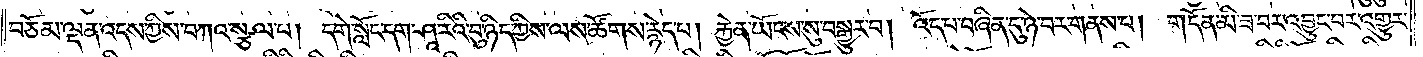བཅོམ་ལྡན་འདས་ཀྱིས་བཀའ་སྩལ་པ། དགེ་སློང་དག་ཤཱ་རིའི་བུ་ཉིད་ཀྱིས་ལས་ཚོགས་རྙེད་པ། རྐྱེན་ཡོངས་སུ་བསྒྱུར་བ། འོད་པ་བཞིན་དུ་ཉེ་བར་གནས་པ། གདོན་མི་ཟ་བར་འབྱུང་བར་འགྱུར་
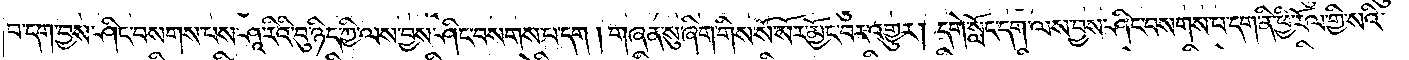བ་དག་བྱས་ཤིང་བསགས་པས་ཤཱ་རིའི་བུ་ཉིད་ཀྱི་ལས་བྱས་ཤིང་བསགས་པ་དག །གཞན་སུ་ཞིག་གིས་སོ་སོར་མྱོང་བར་འགྱུར། དགེ་སློང་དག་ལས་བྱས་ཤིང་བསགས་པ་དག་ནི་ཕྱི་རོལ་གྱི་སའི་
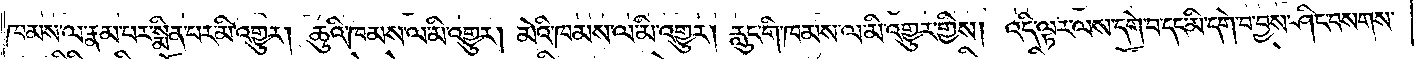ཁམས་ལ་རྣམ་པར་སྨིན་པར་མི་འགྱུར། ཆུའི་ཁམས་ལ་མི་འགྱུར། མེའི་ཁམས་ལ་མི་འགྱུར། རླུང་གི་ཁམས་ལ་མི་འགྱུར་གྱིས། འདི་ལྟར་ལས་དགེ་བ་དང་མི་དགེ་བ་བྱས་ཤིང་བསགས་
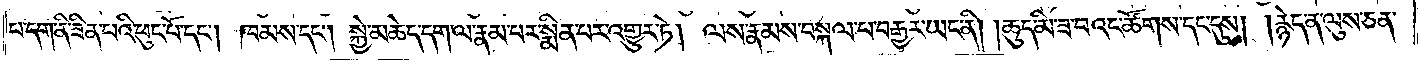པ་དག་ནི་ཟིན་པའི་ཕུང་པོ་དང༌། ཁམས་དང༌། སྐྱེ་མཆེད་དག་ལ་རྣམ་པར་སྨིན་པར་འགྱུར་ཏེ། ལས་རྣམས་བསྐལ་པ་བརྒྱར་ཡང་ནི། །ཆུད་མི་ཟ་བའང་ཚོགས་དང་དུས། །རྙེད་ན་ལུས་ཅན་
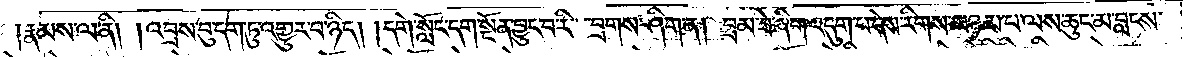རྣམས་ལ་ནི། །འབྲས་བུ་དག་ཏུ་འགྱུར་བ་ཉིད། །དགེ་སློང་དག་སྔོན་བྱུང་བ་རི་བྲགས་ཤིག་ན། བྲམ་ཟེ་ཞིག་འདུག་པ་དེས་རིགས་ཉམ་པ་ལས་ཆུང་མ་བླངས་
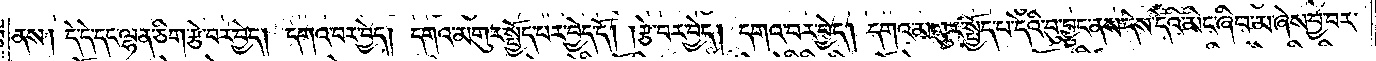ནས། དེ་དེ་དང་ལྷན་ཅིག་རྩེ་བར་བྱེད། དགའ་བར་བྱེད། དགའ་མགུར་སྤྱོད་པར་བྱེད་དོ། །རྩེ་བར་བྱེད། དགའ་བར་བྱེད། དགའ་མགུར་སྤྱོད་པ་དེའི་བུ་བྱུང་ནས་དེས་དེའི་མིང་ཞིབ་མ་ཞེས་བྱ་བར་
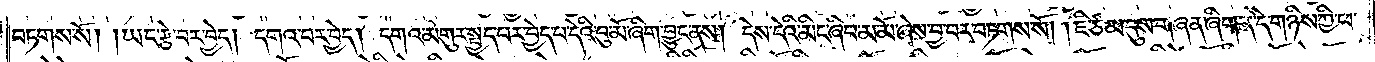བཏགས་སོ། །ཡང་རྩེ་བར་བྱེད། དགའ་བར་བྱེད། དགའ་མགུར་སྤྱད་པར་བྱེད་པ་དེའི་བུ་མོ་ཞིག་བྱུང་ནས། དེས་དེའི་མིང་ཞིབ་མ་མོ་ཞེས་བྱ་བར་བཏགས་སོ། །ཇི་ཙམ་དུས་གཞན་ཞིག་ན་དེ་གཉིས་ཀྱི་ཕ་
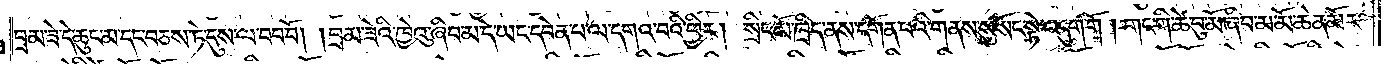བྲམ་ཟེ་དེ་ཆུང་མ་དང་བཅས་ཏེ་དུས་ལ་བབ་བོ། །བྲམ་ཟེའི་ཁྱེའུ་ཞིབ་མ་དེ་ཡང་དབེན་པ་ལ་དགའ་བའི་ཕྱིར། སྲིང་མོ་ཁྲིད་ནས་དགོན་པའི་གནས་སུ་སོང་སྟེ་འདུག་གོ། །གང་གི་ཚེ་བུ་མོ་ཞིབ་མ་མོ་ཆེན་མོར་
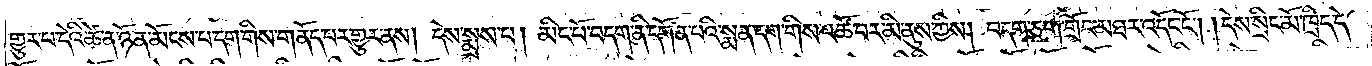གྱུར་པ་དེའི་ཚེ་ན་ཉོན་མོངས་པ་དག་གིས་གནོད་པར་གྱུར་ནས། དེས་སྨྲས་པ། མིང་པོ་བདག་ནི་དགོན་པའི་སྨན་དག་གིས་འཚོ་བར་མི་ནུས་ཀྱིས། བདག་ཅག་གྲོང་མཐར་འདོང་ངོ༌། །དེས་སྲིང་མོ་ཁྲིད་དེ་
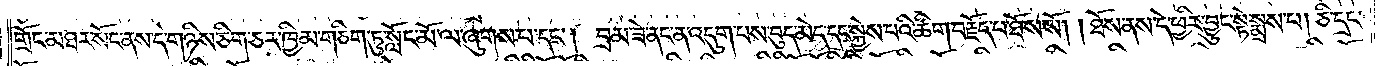གྲོང་མཐར་སོང་ནས་དེ་གཉིས་ཅིག་ཅར་ཁྱིམ་གཅིག་ཏུ་སློང་མོ་ལ་ཞུགས་པ་དང༌། བྲམ་ཟེ་ནང་ན་འདུག་པས་བུད་མེད་དང་སྐྱེས་པའི་ཚིག་བརྗོད་པ་ཐོས་སོ། །ཐོས་ནས་དེ་ཕྱིར་བྱུང་སྟེ་སྨྲས་པ། ཅི་དྲང་
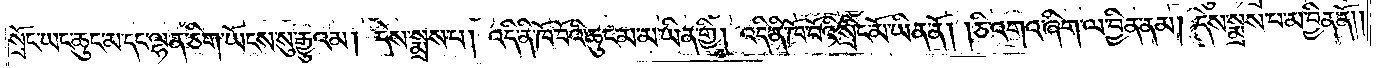སྲོང་ཡང་ཆུང་མ་དང་ལྷན་ཅིག་ཡོངས་སུ་རྒྱུའམ། དེས་སྨྲས་པ། འདི་ནི་ཁོ་བོའི་ཆུང་མ་མ་ཡིན་གྱི། འདི་ནི་ཁོ་བོའི་སྲིང་མོ་ཡིན་ནོ། །ཅི་འགའ་ཞིག་ལ་བྱིན་ནམ། དེས་སྨྲས་པ་མ་བྱིན་ནོ། །
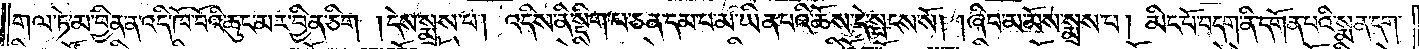གལ་ཏེ་མ་བྱིན་ན་འདི་ཁོ་བོའི་ཆུང་མར་བྱིན་ཅིག །དེས་སྨྲས་པ། འདིས་ནི་སྡིག་པ་ཅན་དམ་པ་མ་ཡིན་པའི་ཆོས་དེ་སྤངས་སོ། །ཞིབ་མ་མོས་སྨྲས་པ། མིང་པོ་བདག་ནི་དགོན་པའི་སྨན་དག་
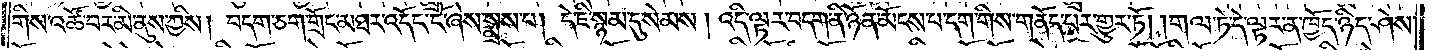གིས་འཚོ་བར་མི་ནུས་ཀྱིས། བདག་ཅག་གྲོང་མཐར་འདོང་ངོ་ཞེས་སྨྲས་པ། དེ་ཇི་སྙམ་དུ་སེམས། འདི་ལྟར་བདག་ནི་ཉོན་མོངས་པ་དག་གིས་གནོད་པར་གྱུར་ཏོ། །གལ་ཏེ་དེ་ལྟར་ན་ཁྱོད་ཉིད་ཤེས་
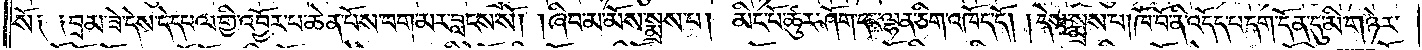སོ༑ ༑བྲམ་ཟེ་དེས་དེ་དཔལ་གྱི་འབྱོར་པ་ཆེན་པོས་བག་མར་བླངས་སོ། །ཞིབ་མ་མོས་སྨྲས་པ། མིང་པོ་ཚུར་ཤོག་དང་ལྷན་ཅིག་འཁོད་དོ། །དེས་སྨྲས་པ། ཁོ་བོ་ནི་འདོད་པ་དག་དོན་དུ་མི་གཉེར་
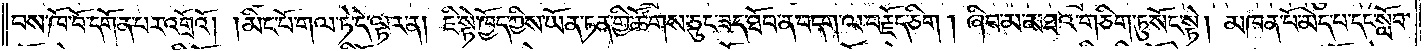བས་ཁོ་བོ་དགོན་པར་འགྲོའོ། །མིང་པོ་གལ་ཏེ་དེ་ལྟར་ན། ཇི་སྟེ་ཁྱོད་ཀྱིས་ཡོན་ཏན་གྱི་ཚོགས་ཅུང་ཟད་ཐོབ་ན་བདག་ལ་བརྗོད་ཅིག། ཞིབ་མ་མཐའ་གཅིག་ཏུ་སོང་སྟེ། མཁན་པོ་མེད་པ་དང་སློབ་
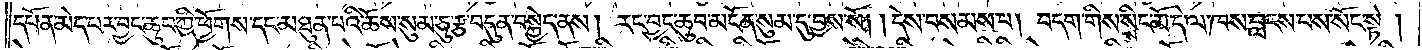དཔོན་མེད་པར་བྱང་ཆུབ་ཀྱི་ཕྱོགས་དང་མཐུན་པའི་ཆོས་སུམ་ཅུ་རྩ་བདུན་བསྐྱེད་ནས། རང་བྱང་ཆུབ་མངོན་སུམ་དུ་བྱས་སོ། །དེས་བསམས་པ། བདག་གིས་སྲིང་མོ་དེ་ལ་ཁས་བླངས་པས་སོང་སྟེ།
